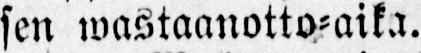sen wastaanotto-aika.
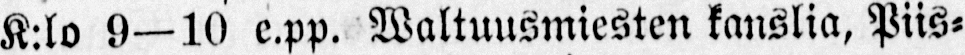K-lo 9—10 e.pp. Waltuusmiesten kanslia, Piis-
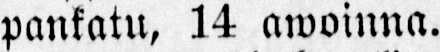pankatu, 14 awoinna.
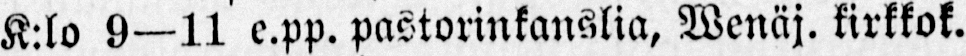K-lo 9—11 e.pp. pastorinkanslia, Wenäj. kirkkok.
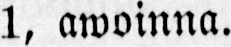1, awoinna.
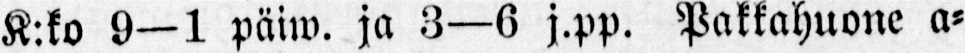K:ko 9—1 päiw. ja 3—6 j.pp. Pakkahuone a-
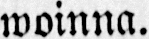woinna.
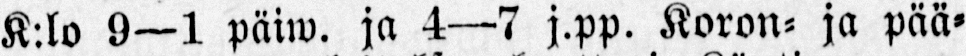K.lo 9—1 päiw. ja 4—7 j.pp. Koron- ja pää-
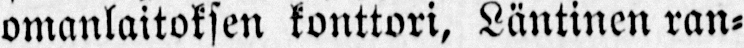omanlaitoksen konttori, Läntinen ran-
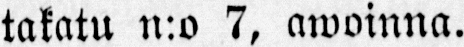takatu n:o 7, awoinna.
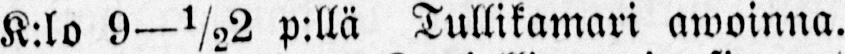K-lo 9—½2 p:llä Tullikamari awoinna.
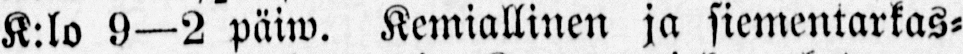K:lo 9—2 päiw. Kemiallinen ja siementarkas-
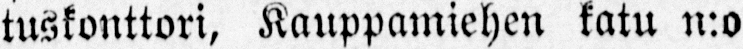tuskonttori, Kauppamiehen katu n:o
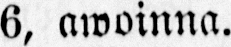6, awoinna.
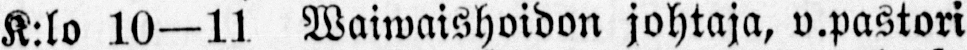K:lo 10—11 Waiwaishoidon johtaja, v.pastori
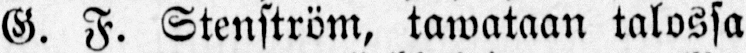G. F. Stenström, tawataan talossa
